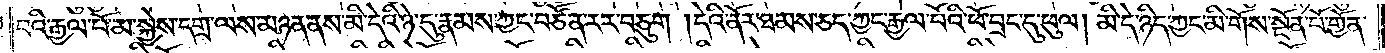བའི་རྒྱལ་པོ་མ་སྐྱེས་དགྲ་ལས་མཉན་ནས་མི་དེའི་ཉེ་དུ་རྣམས་ཀྱང་བཙོན་རར་བཅུག །དེའི་ནོར་ཐམས་ཅད་ཀྱང་རྒྱལ་པོའི་ཕོ་བྲང་དུ་ཕུལ། མི་དེ་ཉིད་ཀྱང་མི་གོས་སྔོན་པོ་གྱོན་
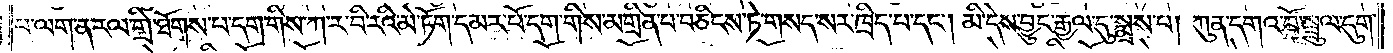པ་ལག་ན་རལ་གྲི་ཐོགས་པ་དག་གིས་ཀ་ར་བི་རའི་མེ་ཏོག་དམར་པོ་དག་གིས་མགྲིན་པ་བཅིངས་ཏེ་གསད་སར་ཁྲིད་པ་དང༌། མི་དེས་བྱུང་རྒྱལ་དུ་སྨྲས་པ། ཀུན་དགའ་བོ་སྦྲུལ་དུག་
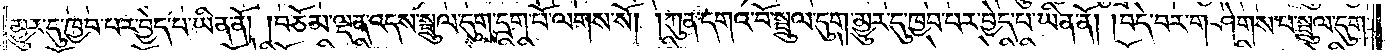མྱུར་དུ་ཁྱབ་པར་བྱེད་པ་ཡིན་ནོ། །བཅོམ་ལྡན་འདས་སྦྲུལ་དུག་དྲག་པོ་ལགས་སོ། །ཀུན་དགའ་བོ་སྦྲུལ་དུག་མྱུར་དུ་ཁྱབ་པར་བྱེད་པ་ཡིན་ནོ། །བདེ་བར་གཤེགས་པ་སྦྲུལ་དུག་
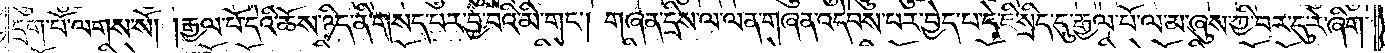དྲག་པོ་ལགས་སོ། །རྒྱལ་པོ་དེའི་ཆོས་ཉིད་ནི་གསད་པར་བྱ་བའི་མི་གང༌། གཞན་དྲིས་ལ་ལན་གཞན་འདེབས་པར་བྱེད་པ་དེ་ཇི་སྲིད་དུ་རྒྱལ་པོ་ལ་མ་ཞུས་ཀྱི་བར་དུ་རེ་ཞིག་
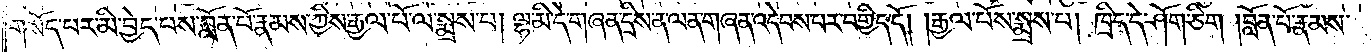གསོད་པར་མི་བྱེད་པས་བློན་པོ་རྣམས་ཀྱིས་རྒྱལ་པོ་ལ་སྨྲས་པ། ལྷ་མི་དེ་གཞན་དྲིས་ན་ལན་གཞན་འདེབས་པར་བགྱིད་དོ། །རྒྱལ་པོས་སྨྲས་པ། ཁྲིད་དེ་ཤོག་ཅིག །བློན་པོ་རྣམས་
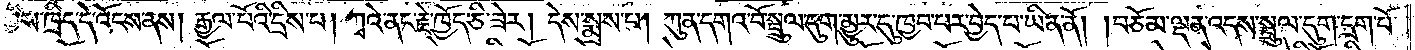ཀྱིས་ཁྲིད་དེ་འོངས་ནས། རྒྱལ་པོའི་དྲིས་པ། ཀྭའེ་ནང་རྗེ་ཁྱོད་ཅི་ཟེར། དེས་སྨྲས་པ། ཀུན་དགའ་བོ་སྦྲུལ་དུག་མྱུར་དུ་ཁྱབ་པར་བྱེད་པ་ཡིན་ནོ། །བཅོམ་ལྡན་འདས་སྦྲུལ་དུག་དྲག་པོ་
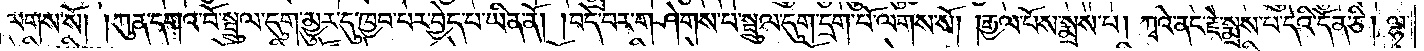ལགས་སོ། །ཀུན་དགའ་བོ་སྦྲུལ་དུག་མྱུར་དུ་ཁྱབ་པར་བྱེད་པ་ཡིན་ནོ། །བདེ་བར་གཤེགས་པ་སྦྲུལ་དུག་དྲག་པོ་ལགས་སོ། །རྒྱལ་པོས་སྨྲས་པ། ཀྭའེ་ནང་རྗེ་སྨྲས་པ་དེའི་དོན་ཅི། ལྷ་
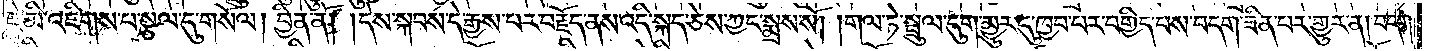ཇེ་མི་འཇིགས་པ་སྩལ་དུ་གསོལ། བྱིན་ནོ། །དེས་སྐབས་དེ་རྒྱས་པར་བརྗོད་ནས་འདི་སྐད་ཅེས་ཀྱང་སྨྲས་སོ། །གལ་ཏེ་སྦྲུལ་དུག་མྱུར་དུ་ཁྱབ་པར་བགྱིད་པས་བདག་ཟིན་པར་གྱུར་ན། བདག་
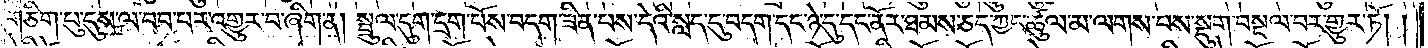གཅིག་པུ་དུས་ལ་བབ་པར་འགྱུར་བ་ཞིག་ན། སྦྲུལ་དུག་དྲག་པོས་བདག་ཟིན་པས་དེའི་སླད་དུ་བདག་དང་ཉེ་དུ་དང་ནོར་ཐམས་ཅད་ཀྱང་ཚུལ་མ་ལགས་པས་སྡུག་བསྔལ་བར་གྱུར་ཏོ། །
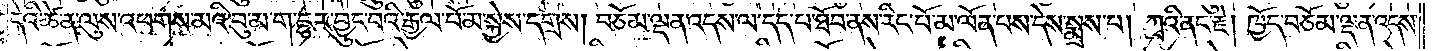དེའི་ཚེ་ན་ལུས་འཕགས་མའི་བུ་མ་ག་དྷར་བྱུང་བའི་རྒྱལ་པོ་མ་སྐྱེས་དགྲས། བཅོམ་ལྡན་འདས་ལ་དད་པ་ཐོབ་ནས་རིང་པོ་མ་ལོན་པས་དེས་སྨྲས་པ། ཀྭའི་ནང་རྗེ། ཁྱོད་བཅོམ་ལྡན་འདས་
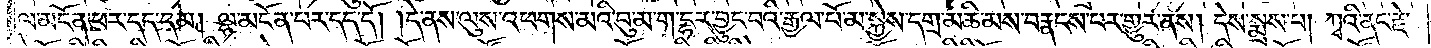ལ་མངོན་པར་དད་དམ། ལྷ་མངོན་པར་དད་དོ། །དེ་ནས་ལུས་འཕགས་མའི་བུ་མ་ག་དྷར་བྱུང་བའི་རྒྱལ་པོ་མ་སྐྱེས་དགྲ་མཆི་མས་བརྣངས་པར་གྱུར་ནས། དེས་སྨྲས་པ། ཀྭའི་ནང་རྗེ་
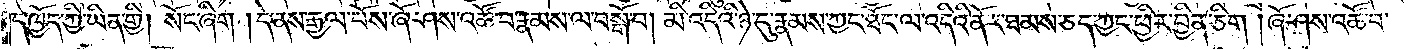དེ་ཁྱོད་ཀྱི་ཡིན་གྱི། སོང་ཞིག །དེ་ནས་རྒྱལ་པོས་ཞོ་ཤས་འཚོ་བ་རྣམས་ལ་བསྒོ་བ། མི་འདིའི་ཉེ་དུ་རྣམས་ཀྱང་ཐོང་ལ་འདིའི་ནོར་ཐམས་ཅད་ཀྱང་ཕྱིར་བྱིན་ཅིག །ཞོ་ཤས་འཚོ་བ་
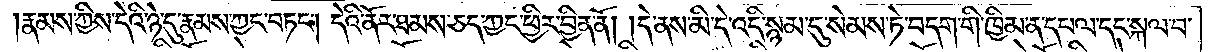རྣམས་ཀྱིས་དེའི་ཉེ་དུ་རྣམས་ཀྱང་བཏང༌། དེའི་ནོར་ཐམས་ཅད་ཀྱང་ཕྱིར་བྱིན་ནོ། །དེ་ནས་མི་དེ་འདི་སྙམ་དུ་སེམས་ཏེ་བདག་གི་ཁྱིམ་ན་དཔལ་དང་སྐལ་བ་
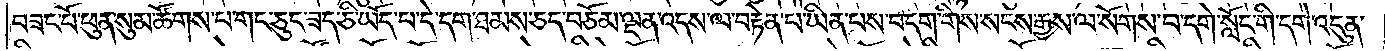བཟང་པོ་ཕུན་སུམ་ཚོགས་པ་གང་ཅུང་ཟད་ཅི་ཡོད་པ་དེ་དག་ཐམས་ཅད་བཅོམ་ལྡན་འདས་ལ་བརྟེན་པ་ཡིན་པས་བདག་གིས་སངས་རྒྱས་ལ་སོགས་པ་དགེ་སློང་གི་དགེ་འདུན་
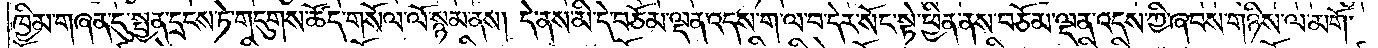ཁྱིམ་གཞན་དུ་སྤྱན་དྲངས་ཏེ་གདུགས་ཚོད་གསོལ་ལོ་སྙམ་ནས། དེ་ནས་མི་དེ་བཅོམ་ལྡན་འདས་ག་ལ་བ་དེར་སོང་སྟེ་ཕྱིན་ནས་བཅོམ་ལྡན་འདས་ཀྱི་ཞབས་གཉིས་ལ་མགོ་
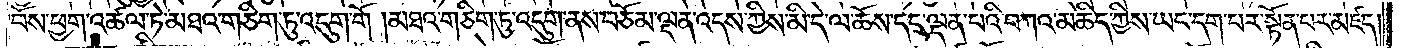བོས་ཕྱག་འཚལ་ཏེ་མཐའ་གཅིག་ཏུ་འདུག་གོ །མཐའ་གཅིག་ཏུ་འདུག་ནས་བཅོམ་ལྡན་འདས་ཀྱིས་མི་དེ་ལ་ཆོས་དང་ལྡན་པའི་བཀའ་མཆིད་ཀྱིས་ཡང་དག་པར་སྟོན་པར་མཛད།
